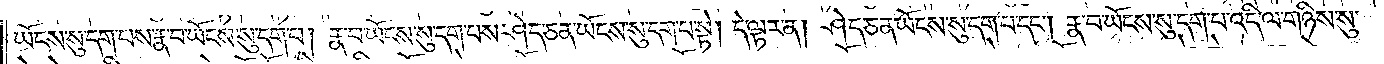ཡོངས་སུ་དག་པས་རྣ་བ་ཡོངས་སུ་དག་པ། རྣ་བ་ཡོངས་སུ་དག་པས་ཤེད་ཅན་ཡོངས་སུ་དག་པ་སྟེ། དེ་ལྟར་ན། ཤེད་ཅན་ཡོངས་སུ་དག་པ་དང༌། རྣ་བ་ཡོངས་སུ་དག་པ་འདི་ལ་གཉིས་སུ་
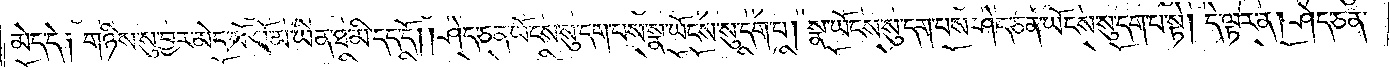མེད་དེ། གཉིས་སུ་བྱར་མེད་སོ་སོ་མ་ཡིན་ཐ་མི་དད་དོ། །ཤེད་ཅན་ཡོངས་སུ་དག་པས་སྣ་ཡོངས་སུ་དག་པ། སྣ་ཡོངས་སུ་དག་པས་ཤེད་ཅན་ཡོངས་སུ་དག་པ་སྟེ། དེ་ལྟར་ན། ཤེད་ཅན་
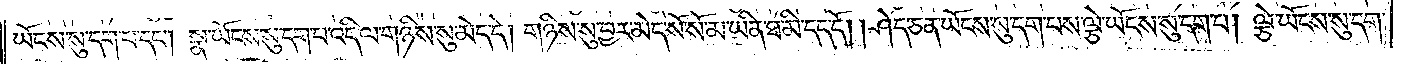ཡོངས་སུ་དག་པ་དང༌། སྣ་ཡོངས་སུ་དག་པ་འདི་ལ་གཉིས་སུ་མེད་དེ། གཉིས་སུ་བྱར་མེད་སོ་སོ་མ་ཡིན་ཐ་མི་དད་དོ། །ཤེད་ཅན་ཡོངས་སུ་དག་པས་ལྕེ་ཡོངས་སུ་དག་པ། ལྕེ་ཡོངས་སུ་དག་
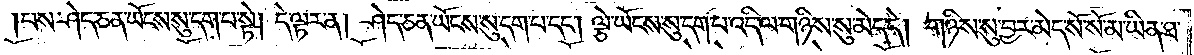པས་ཤེད་ཅན་ཡོངས་སུ་དག་པ་སྟེ། དེ་ལྟར་ན། ཤེད་ཅན་ཡོངས་སུ་དག་པ་དང༌། ལྕེ་ཡོངས་སུ་དག་པ་འདི་ལ་གཉིས་སུ་མེད་དེ། གཉིས་སུ་བྱར་མེད་སོ་སོ་མ་ཡིན་ཐ་
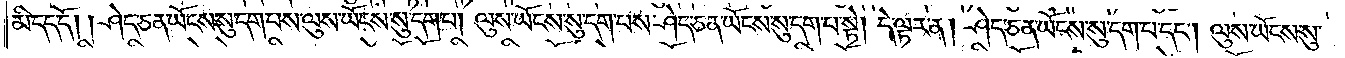མི་དད་དོ། །ཤེད་ཅན་ཡོངས་སུ་དག་པས་ལུས་ཡོངས་སུ་དག་པ། །ལུས་ཡོངས་སུ་དག་པས་ཤེད་ཅན་ཡོངས་སུ་དག་པ་སྟེ། དེ་ལྟར་ན། ཤེད་ཅན་ཡོངས་སུ་དག་པ་དང༌། ལུས་ཡོངས་སུ་
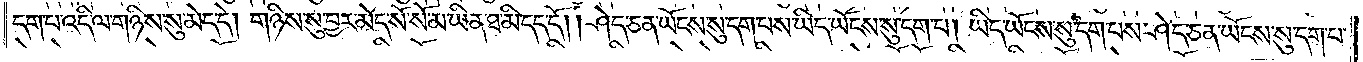དག་པ་འདི་ལ་གཉིས་སུ་མེད་དེ། གཉིས་སུ་བྱར་མེད་སོ་སོ་མ་ཡིན་ཐ་མི་དད་དོ། །ཤེད་ཅན་ཡོངས་སུ་དག་པས་ཡིད་ཡོངས་སུ་དག་པ། ཡིད་ཡོངས་སུ་དག་པས་ཤེད་ཅན་ཡོངས་སུ་དག་པ་
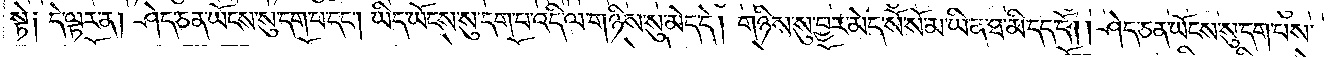སྟེ། དེ་ལྟར་ན། ཤེད་ཅན་ཡོངས་སུ་དག་པ་དང༌། ཡིད་ཡོངས་སུ་དག་པ་འདི་ལ་གཉིས་སུ་མེད་དེ། གཉིས་སུ་བྱར་མེད་སོ་སོ་མ་ཡིན་ཐ་མི་དད་དོ། །ཤེད་ཅན་ཡོངས་སུ་དག་པས་
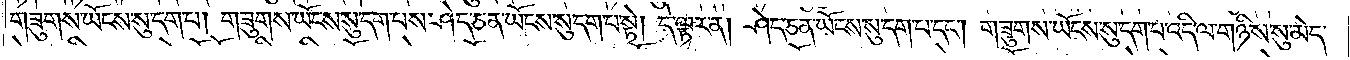གཟུགས་ཡོངས་སུ་དག་པ། གཟུགས་ཡོངས་སུ་དག་པས་ཤེད་ཅན་ཡོངས་སུ་དག་པ་སྟེ། དེ་ལྟར་ན། ཤེད་ཅན་ཡོངས་སུ་དག་པ་དང༌། གཟུགས་ཡོངས་སུ་དག་པ་འདི་ལ་གཉིས་སུ་མེད་
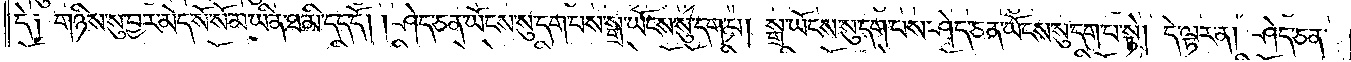དེ། གཉིས་སུ་བྱར་མེད་སོ་སོ་མ་ཡིན་ཐ་མི་དད་དོ། །ཤེད་ཅན་ཡོངས་སུ་དག་པས་སྒྲ་ཡོངས་སུ་དག་པ། སྒྲ་ཡོངས་སུ་དག་པས་ཤེད་ཅན་ཡོངས་སུ་དག་པ་སྟེ། དེ་ལྟར་ན། ཤེད་ཅན་
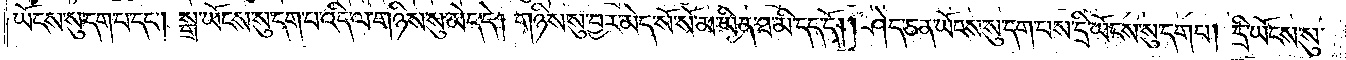ཡོངས་སུ་དག་པ་དང༌། སྒྲ་ཡོངས་སུ་དག་པ་འདི་ལ་གཉིས་སུ་མེད་དེ། གཉིས་སུ་བྱར་མེད་སོ་སོ་མ་ཡིན་ཐ་མི་དད་དོ། །ཤེད་ཅན་ཡོངས་སུ་དག་པས་དྲི་ཡོངས་སུ་དག་པ། དྲི་ཡོངས་སུ་
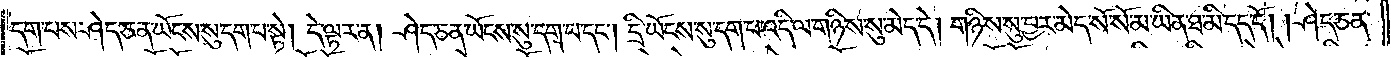དག་པས་ཤེད་ཅན་ཡོངས་སུ་དག་པ་སྟེ། དེ་ལྟར་ན། ཤེད་ཅན་ཡོངས་སུ་དག་པ་དང༌། དྲི་ཡོངས་སུ་དག་པ་འདི་ལ་གཉིས་སུ་མེད་དེ། གཉིས་སུ་བྱར་མེད་སོ་སོ་མ་ཡིན་ཐ་མི་དད་དོ། །ཤེད་ཅན་
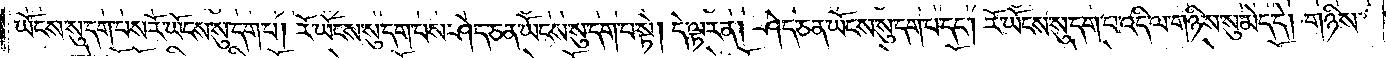ཡོངས་སུ་དག་པས་རོ་ཡོངས་སུ་དག་པ། རོ་ཡོངས་སུ་དག་པས་ཤེད་ཅན་ཡོངས་སུ་དག་པ་སྟེ། དེ་ལྟར་ན། ཤེད་ཅན་ཡོངས་སུ་དག་པ་དང༌། རོ་ཡོངས་སུ་དག་པ་འདི་ལ་གཉིས་སུ་མེད་དེ། གཉིས་
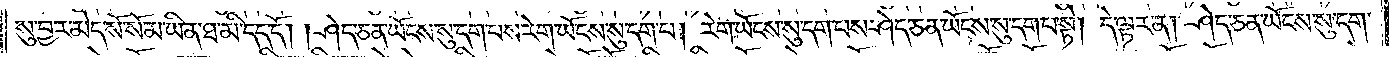སུ་བྱར་མེད་སོ་སོ་མ་ཡིན་ཐ་མི་དད་དོ། །ཤེད་ཅན་ཡོངས་སུ་དག་པས་རེག་ཡོངས་སུ་དག་པ། རེག་ཡོངས་སུ་དག་པས་ཤེད་ཅན་ཡོངས་སུ་དག་པ་སྟེ། དེ་ལྟར་ན། ཤེད་ཅན་ཡོངས་སུ་དག་
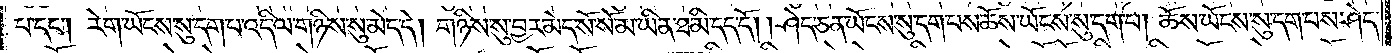པ་དང༌། རེག་ཡོངས་སུ་དག་པ་འདི་ལ་གཉིས་སུ་མེད་དེ། གཉིས་སུ་བྱར་མེད་སོ་སོ་མ་ཡིན་ཐ་མི་དད་དོ། །ཤེད་ཅན་ཡོངས་སུ་དག་པས་ཆོས་ཡོངས་སུ་དག་པ། ཆོས་ཡོངས་སུ་དག་པས་ཤེད་
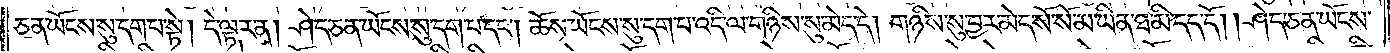ཅན་ཡོངས་སུ་དག་པ་སྟེ། དེ་ལྟར་ན། ཤེད་ཅན་ཡོངས་སུ་དག་པ་དང༌། ཆོས་ཡོངས་སུ་དག་པ་འདི་ལ་གཉིས་སུ་མེད་དེ། གཉིས་སུ་བྱར་མེད་སོ་སོ་མ་ཡིན་ཐ་མི་དད་དོ། །ཤེད་ཅན་ཡོངས་
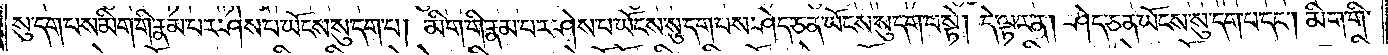སུ་དག་པས་མིག་གི་རྣམ་པར་ཤེས་པ་ཡོངས་སུ་དག་པ། མིག་གི་རྣམ་པར་ཤེས་པ་ཡོངས་སུ་དག་པས་ཤེད་ཅན་ཡོངས་སུ་དག་པ་སྟེ། དེ་ལྟར་ན། ཤེད་ཅན་ཡོངས་སུ་དག་པ་དང༌། མིག་གི་
